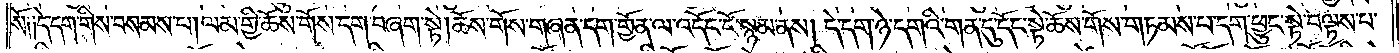སོ༑ ༑དེ་དག་གིས་བསམས་པ། ལམ་གྱི་ཆོས་གོས་དག་བཞག་སྟེ། ཆོས་གོས་གཞན་དག་གྱོན་ལ་འདོང་ངོ་སྙམ་ནས། དེ་དག་ཉེ་དགའི་གན་དུ་དོང་སྟེ་ཆོས་གོས་གཏམས་པ་དག་ཕྱུང་སྟེ་བལྟས་པ་
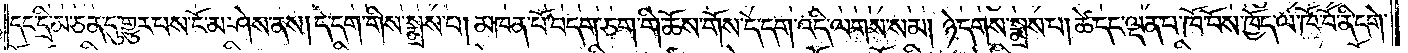དང་དྲི་མ་ཅན་དུ་གྱུར་པས་ངོ་མ་ཤེས་ནས། དེ་དག་གིས་སྨྲས་པ། མཁན་པོ་བདག་ཅག་གི་ཆོས་གོས་དེ་དག་འདི་ལགས་སམ། ཉེ་དགས་སྨྲས་པ། ཚེ་དང་ལྡན་པ་ཁོ་བོས་ཁྱོད་ལ་ཁོ་བོ་ནི་དགེ་
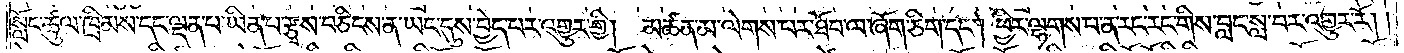སློང་ཚུལ་ཁྲིམས་དང་ལྡན་པ་ཡིན་པ་རྩྭས་བཅིངས་ན་ཡང་དུས་བྱེད་པར་འགྱུར་གྱི། མཚན་མ་ལེགས་པར་ཐོབ་ལ་ཞོག་ཅིག་དང༌། ཕྱིར་ལྷགས་པ་ན་རང་རང་གིས་བླང་སླ་བར་འགྱུར་རོ། །
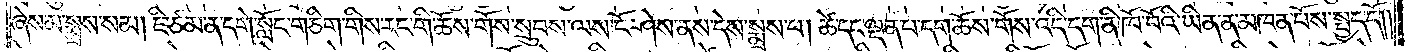ཞེས་མ་སྨྲས་སམ། ཇི་ཙམ་ན་དགེ་སློང་གཅིག་གིས་རང་གི་ཆོས་གོས་སྲུབས་ལས་ངོ་ཤེས་ནས་དེས་སྨྲས་པ། ཚེ་དང་ལྡན་པ་དག་ཆོས་གོས་འདི་དག་ནི་ཁོ་བོའི་ཡིན་ན་མཁན་པོས་སྤྱད་དོ། །
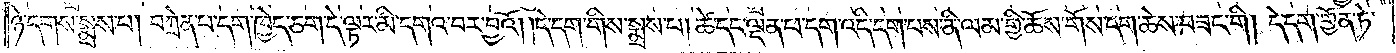ཉེ་དགས་སྨྲས་པ། བཀྲེན་པ་དག་ཁྱེད་ཅག་དེ་ལྟར་མི་དགའ་བར་བྱའོ། །དེ་དག་གིས་སྨྲས་པ། ཚེ་དང་ལྡན་པ་དག་འདི་དག་པས་ནི་ལམ་གྱི་ཆོས་གོས་དག་ཆེས་བཟང་གི། དེ་དག་གྱོན་ཏེ་
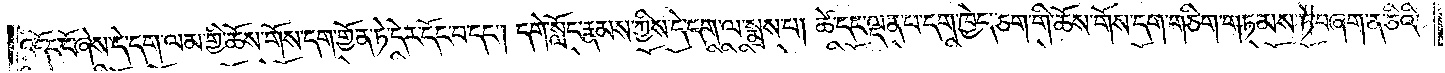འདོང་ངོ་ཞེས་དེ་དག་ལམ་གྱི་ཆོས་གོས་དག་གྱོན་ཏེ་དེར་དོང་བ་དང༌། དགེ་སློང་རྣམས་ཀྱིས་དེ་དག་ལ་སྨྲས་པ། ཚེ་དང་ལྡན་པ་དག་ཁྱེད་ཅག་གི་ཆོས་གོས་དག་གཅིག་གཏམས་ཏེ་བཞག་ན་ཅིའི་
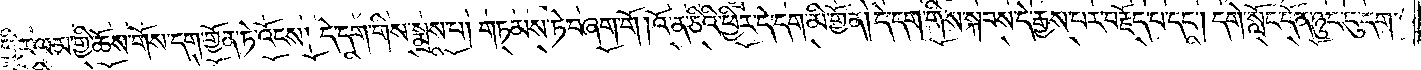ཕྱིར་ལམ་གྱི་ཆོས་གོས་དག་གྱོན་ཏེ་འོངས། དེ་དག་གིས་སྨྲས་པ། གཏམས་ཏེ་བཞག་གོ །འོ་ན་ཅིའི་ཕྱིར་དེ་དག་མི་གྱོན། དེ་དག་གིས་སྐབས་དེ་རྒྱས་པར་བརྗོད་པ་དང༌། དགེ་སློང་དོན་ཉུང་ངུ་དག་
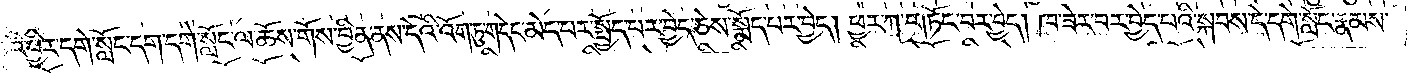ཅིའི་ཕྱིར་དགེ་སློང་དག་དགེ་སློང་ལ་ཆོས་གོས་བྱིན་ནས་དེའི་འོག་ཏུ་གདེང་མེད་པར་སྤྱོད་པར་བྱེད་ཅེས་སྨོད་པར་བྱེད། ཕྱར་ཀ་གཏོང་བར་བྱེད། ཁ་ཟེར་བར་བྱེད་པའི་སྐབས་དེ་དགེ་སློང་རྣམས་
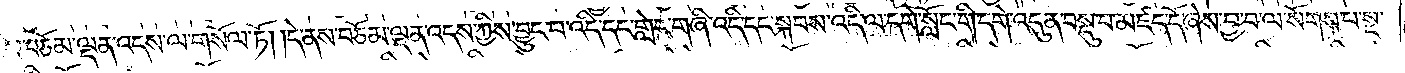ཀྱིས་བཅོམ་ལྡན་འདས་ལ་གསོལ་ཏོ། །དེ་ནས་བཅོམ་ལྡན་འདས་ཀྱིས་བྱུང་བ་འདི་དང་གླེང་གཞི་འདི་དང་སྐབས་འདི་ལ་དགེ་སློང་གི་དགེ་འདུན་བསྡུ་བ་མཛད་དོ་ཞེས་བྱ་བ་ལ་སོགས་པ་སྔ་
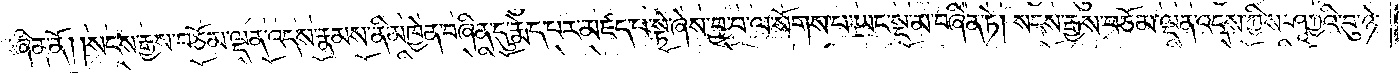བཞིན་ནོ། །སངས་རྒྱས་བཅོམ་ལྡན་འདས་རྣམས་ནི་མཁྱེན་བཞིན་དུ་རྨེད་པར་མཛད་པ་སྟེ་ཞེས་བྱ་བ་ལ་སོགས་པ་ཡང་སྔ་མ་བཞིན་ཏེ། སངས་རྒྱས་བཅོམ་ལྡན་འདས་ཀྱིས་ཤཱཀྱའི་བུ་ཉེ་
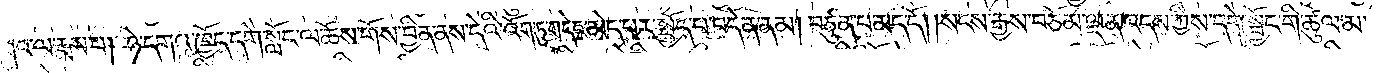དགའ་ལ་རྨས་པ། ཉེ་དགའ་ཁྱོད་དགེ་སློང་ལ་ཆོས་གོས་བྱིན་ནས་དེའི་འོག་ཏུ་གདེང་མེད་པར་སྤྱོད་པ་བདེན་ནམ། བཙུན་པ་མད་དོ། །སངས་རྒྱས་བཅོམ་ལྡན་འདས་ཀྱིས་དགེ་སྦྱོང་གི་ཚུལ་མ་
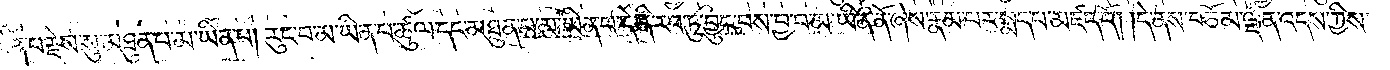ཡིན་པ་རྗེས་སུ་མཐུན་པ་མ་ཡིན་པ། རུང་བ་མ་ཡིན་པ་ཚུལ་དང་མཐུན་པ་མ་ཡིན་པ་དེ་ནི་རབ་ཏུ་བྱུང་བས་བྱ་བ་མ་ཡིན་ནོ་ཞེས་རྣམ་པར་སྨད་པ་མཛད་དོ། །དེ་ནས་བཅོམ་ལྡན་འདས་ཀྱིས་
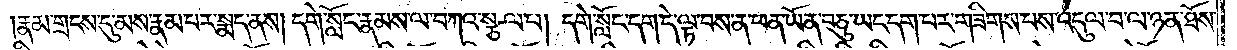རྣམ་གྲངས་དུ་མས་རྣམ་པར་སྨད་ནས། དགེ་སློང་རྣམས་ལ་བཀའ་སྩལ་པ། དགེ་སློང་དག་དེ་ལྟ་བས་ན་ཕན་ཡོན་བཅུ་ཡང་དག་པར་གཟིགས་པས་འདུལ་བ་ལ་ཉན་ཐོས་
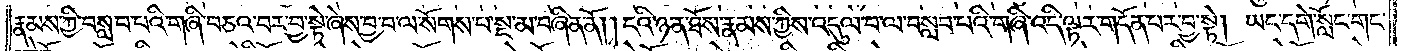རྣམས་ཀྱི་བསླབ་པའི་གཞི་བཅའ་བར་བྱ་སྟེ་ཞེས་བྱ་བ་ལ་སོགས་པ་སྔ་མ་བཞིན་ནོ། །ངའི་ཉན་ཐོས་རྣམས་ཀྱིས་འདུལ་བ་ལ་བསླབ་པའི་གཞི་འདི་ལྟར་གདོན་པར་བྱ་སྟེ། ཡང་དགེ་སློང་གང་
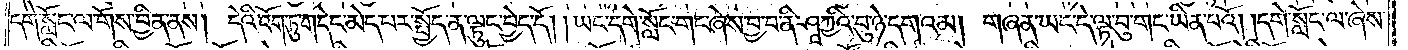དགེ་སློང་ལ་གོས་བྱིན་ནས། དེའི་འོག་ཏུ་གདེང་མེད་པར་སྤྱོད་ན་ལྟུང་བྱེད་དོ། །ཡང་དགེ་སློང་གང་ཞེས་བྱ་བ་ནི་ཤཱཀྱའི་བུ་ཉེ་དགའམ། གཞན་ཡང་དེ་ལྟ་བུ་གང་ཡིན་པའོ། །དགེ་སློང་ལ་ཞེས་
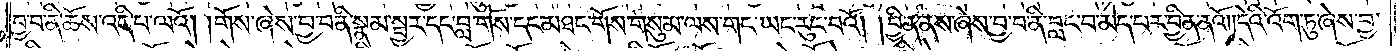བྱ་བ་ནི་ཆོས་འདི་པ་ལའོ། །གོས་ཞེས་བྱ་བ་ནི་སྣམ་སྦྱར་དང་བླ་གོས་དང་མཐང་གོས་གསུམ་ལས་གང་ཡང་རུང་བའོ། །བྱིན་ནས་ཞེས་བྱ་བ་ནི་བླང་བ་མེད་པར་བྱིན་ནའོ། །དེའི་འོག་ཏུ་ཞེས་བྱ་
